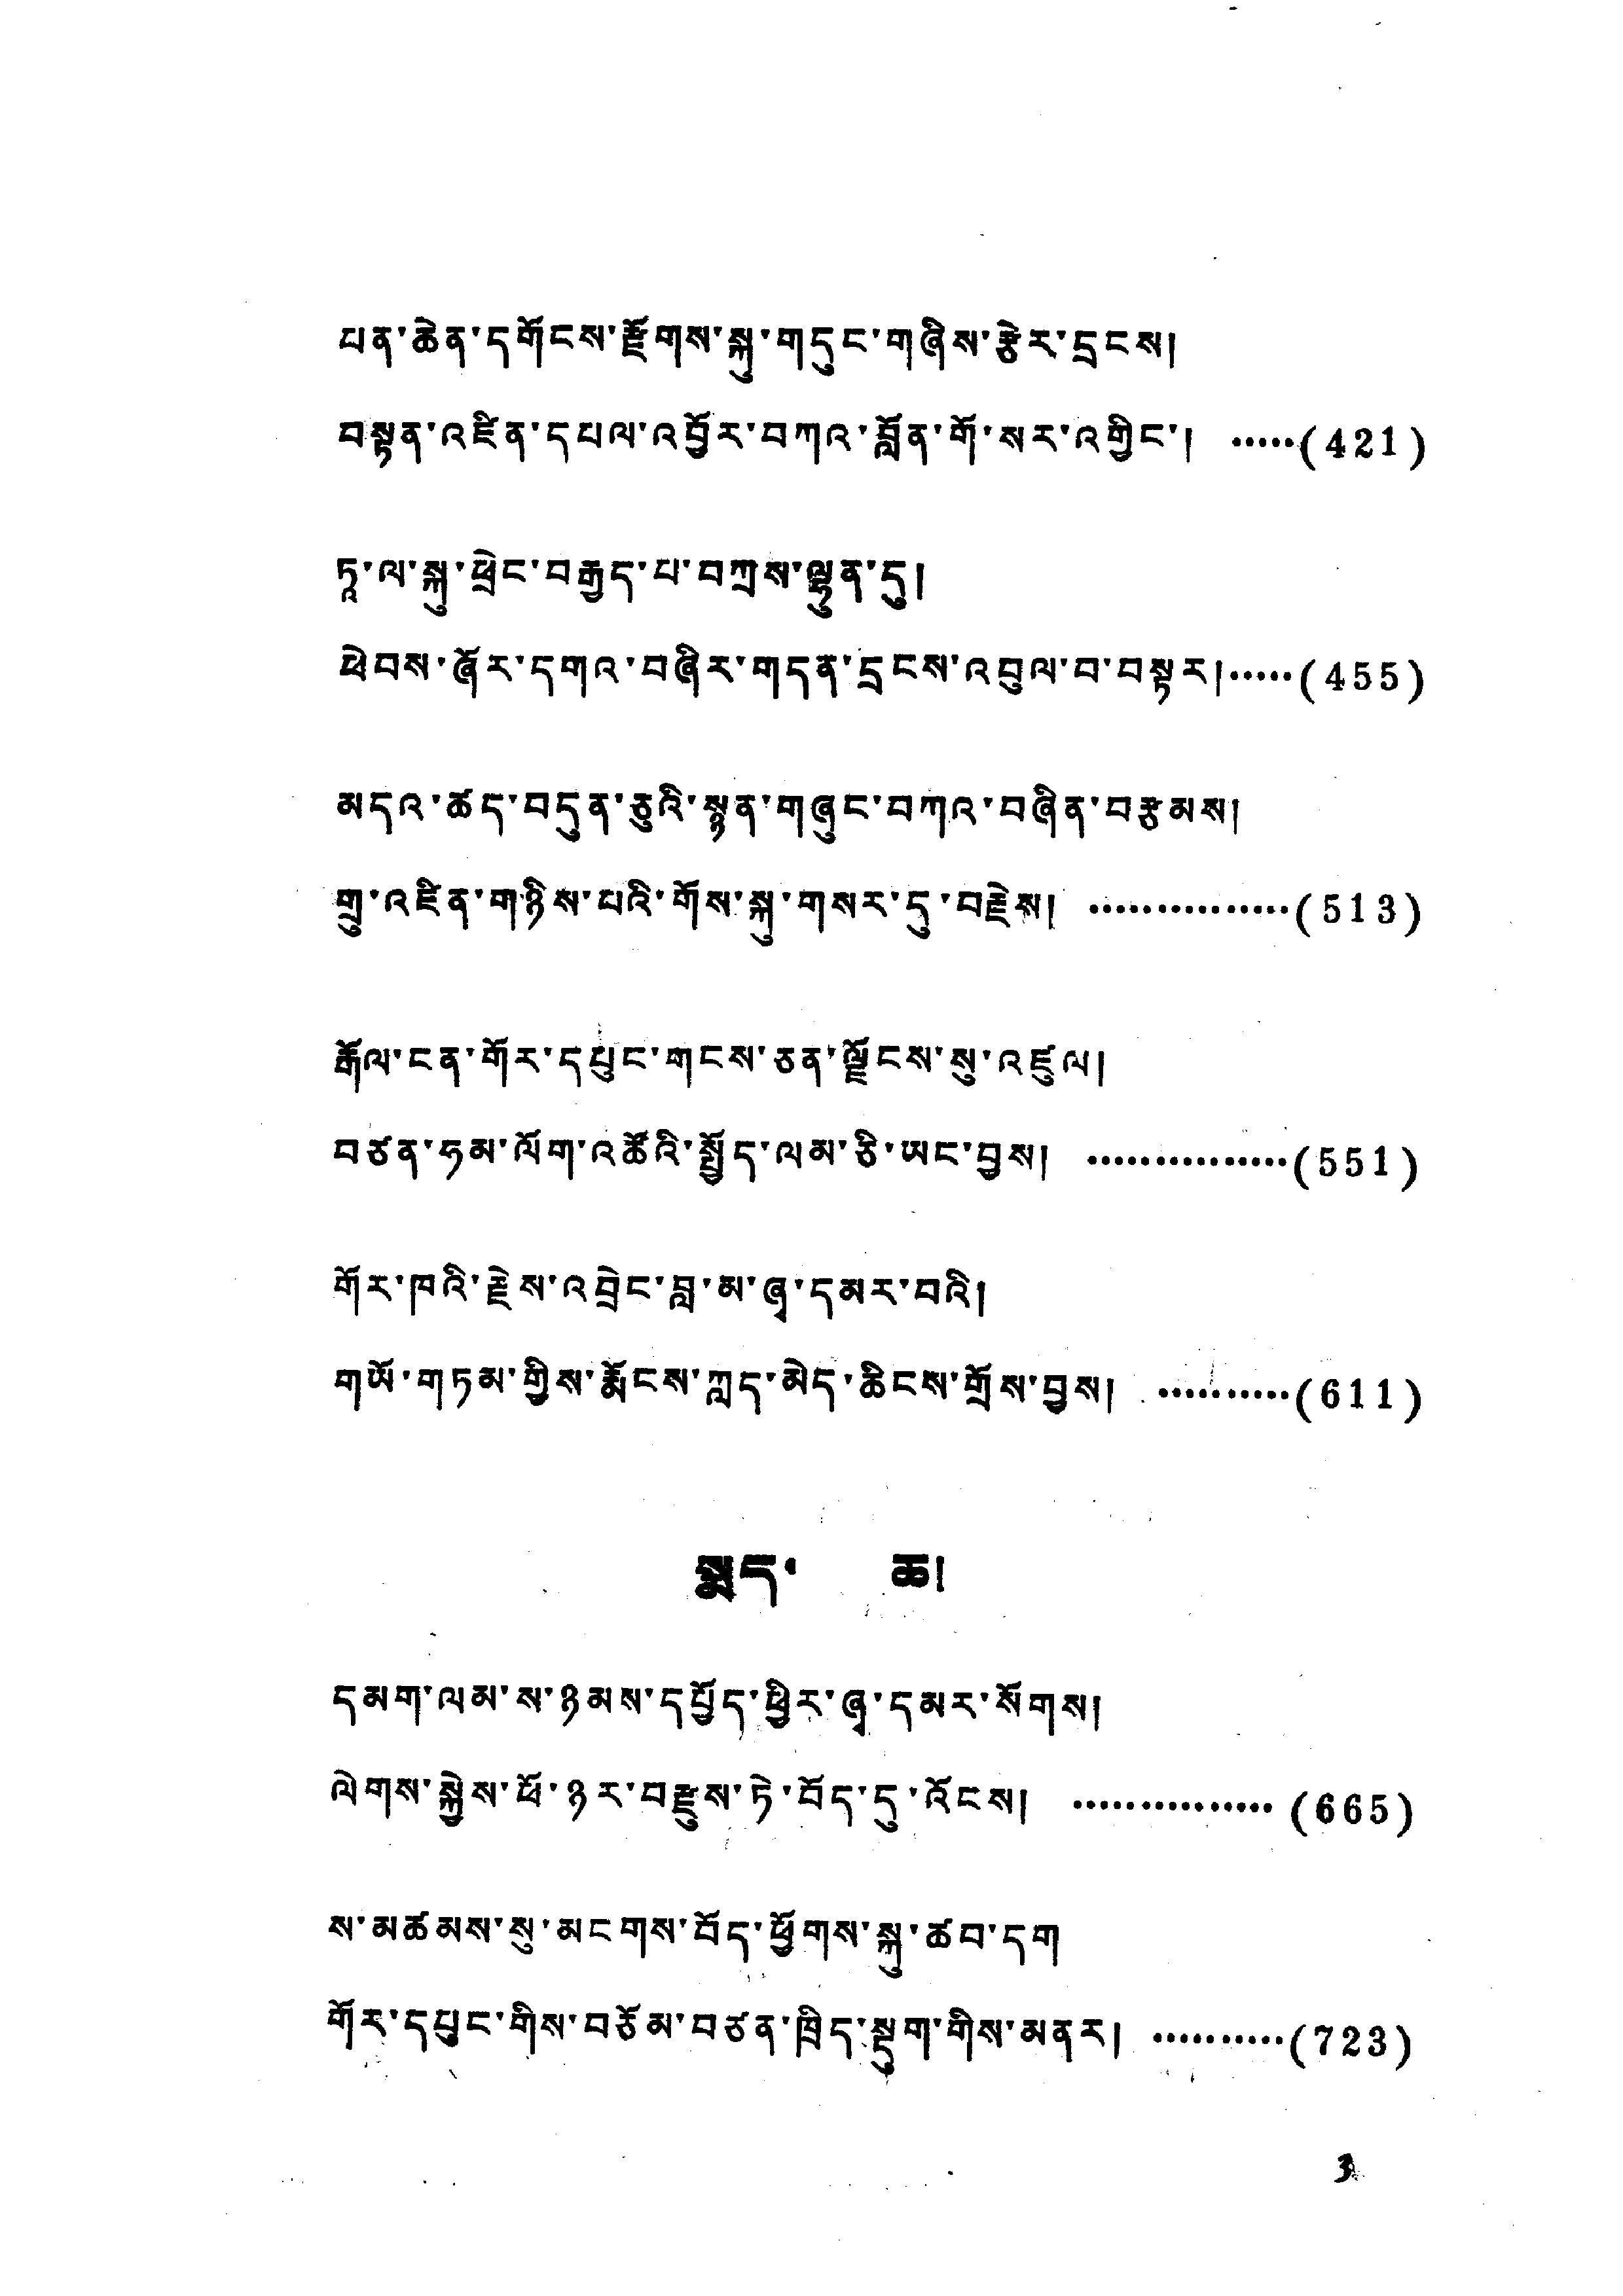པན་ཆེན་དགོངས་རྫོགས་སྐུ་གདུང་གཞིས་རྩེར་དྲངས།
བསཏན་འཛིན་དཔལ་འབྱོར་བཀའ་བློན་གོ་སར་འགྱིང་། .....(421)
ཏཱ་ལ་སྐུ་ཕྲེང་བརྒྱད་པ་བཀྲས་ལྷུན་དུ།
ཕེབས་ཞོར་དགའ་བཞིར་གདན་དྲངས་འབུལ་བ་བསྟར།.....(455)
མདའ་ཚད་བདུན་ཅུའི་སྙན་གཞུང་བཀའ་བཞིན་བརྩམས།
གྲུ་འཛིན་གཉིས་པའི་གོས་སྐུ་གསར་དུ་བརྗེས། ...............(513)
རྒོལ་ངན་གོར་དཔུང་གངས་ཅན་ལྗོངས་སུ་འཛུལ།
བཙན་ཧམ་ལོག་འཚོའི་སྤྱོད་ལམ་ཅི་ཡང་བྱས། ...............(551)
གོར་ཁའི་རྗེས་འབྲེང་བླ་མ་ཞྭ་དམར་བའི།
གཡོ་གཏམ་གྱིས་རྨོངས་ཀླད་མེད་ཆིངས་གྲོས་བྱས། ..........(611)
སྨད་ ཆ།
དམག་ལམ་ས་ཉམས་དཔྱོད་ཕྱིར་ཞྭ་དམར་སོགས།
ལེགས་སྐྱེས་ཕོ་ཉར་བརྫུས་ཏེ་བོད་དུ་འོངས། ...............(665)
ས་མཚམས་སུ་མངགས་བོད་ཕྱོགས་སྐུ་ཚབ་དག
གོར་དཔུང་གིས་བཅོམ་བཙན་ཁྲིད་སྡུག་གིས་མནར། ..........(733)
3
